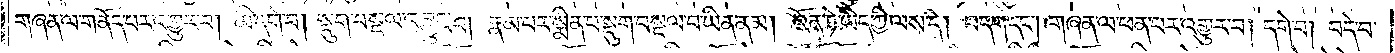གཞན་ལ་གནོད་པར་འགྱུར་བ། མི་དགེ་བ། སྡུག་བསྔལ་འབྱུང་བ། རྣམ་པར་སྨིན་པ་སྡུག་བསྔལ་བ་ཡིན་ནམ། འོན་ཏེ་ཡིད་ཀྱི་ལས་དེ། བདག་དང༌། གཞན་ལ་ཕན་པར་འགྱུར་བ། དགེ་བ། བདེ་བ་
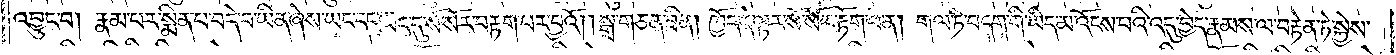འབྱུང་བ། རྣམ་པར་སྨིན་པ་བདེ་བ་ཡིན་ཞེས་ཡང་དང་ཡང་དུ་སོ་སོར་བརྟག་པར་བྱའོ། །སྒྲ་གཅན་ཟིན། ཁྱོད་དེ་ལྟར་སོ་སོར་རྟོག་པ་ན། གལ་ཏེ་བདག་གི་ཡིད་མ་འོངས་པའི་འདུ་བྱེད་རྣམས་ལ་བརྟེན་ཏེ་སྐྱེས་
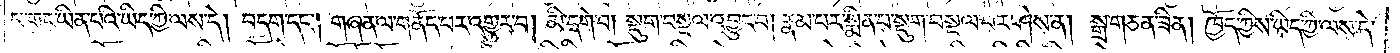པ་གང་ཡིན་པའི་ཡིད་ཀྱི་ལས་དེ། བདག་དང༌། གཞན་ལ་གནོད་པར་འགྱུར་བ། མི་དགེ་བ། སྡུག་བསྔལ་འབྱུང་བ། རྣམ་པར་སྨིན་པ་སྡུག་བསྔལ་བར་ཤེས་ན། སྒྲ་གཅན་ཟིན། ཁྱོད་ཀྱིས་ཡིད་ཀྱི་ལས་དེ་
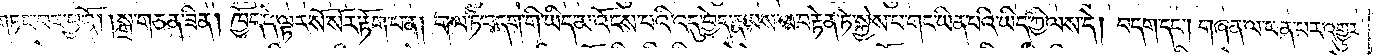གཏང་བར་བྱའོ། །སྒྲ་གཅན་ཟིན། ཁྱོད་དེ་ལྟར་སོ་སོར་རྟོག་པ་ན། གལ་ཏེ་བདག་གི་ཡིད་མ་འོངས་པའི་འདུ་བྱེད་རྣམས་ལ་བརྟེན་ཏེ་སྐྱེས་པ་གང་ཡིན་པའི་ཡིད་ཀྱི་ལས་དེ། བདག་དང༌། གཞན་ལ་ཕན་པར་འགྱུར་
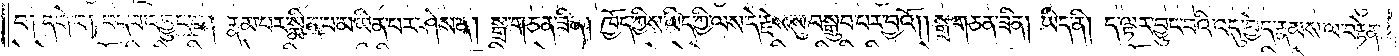བ༑ དགེ་བ། བདེ་བ་འབྱུང་བ། རྣམ་པར་སྨིན་པ་མ་ཡིན་པར་ཤེས་ན། སྒྲ་གཅན་ཟིན། ཁྱོད་ཀྱིས་ཡིད་ཀྱི་ལས་དེ་རྗེས་སུ་བསྒྲུབ་པར་བྱའོ། །སྒྲ་གཅན་ཟིན། ཡིད་ནི། ད་ལྟར་བྱུང་བའི་འདུ་བྱེད་རྣམས་ལ་བརྟེན་
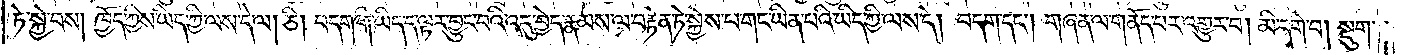ཏེ་སྐྱེ་བས། ཁྱོད་ཀྱིས་ཡིད་ཀྱི་ལས་དེ་ལ། ཅི། བདག་གི་ཡིད་ད་ལྟར་བྱུང་བའི་འདུ་བྱེད་རྣམས་ལ་བརྟེན་ཏེ་སྐྱེས་པ་གང་ཡིན་པའི་ཡིད་ཀྱི་ལས་དེ། བདག་དང༌། གཞན་ལ་གནོད་པར་འགྱུར་བ། མི་དགེ་བ། སྡུག་
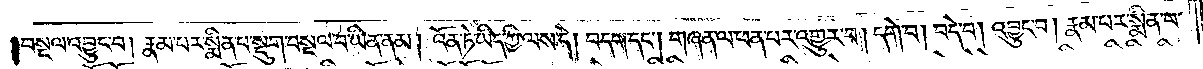བསྔལ་འབྱུང་བ། རྣམ་པར་སྨིན་པ་སྡུག་བསྔལ་བ་ཡིན་ནམ། འོན་ཏེ་ཡིད་ཀྱི་ལས་དེ། བདག་དང༌། གཞན་ལ་ཕན་པར་འགྱུར་བ། དགེ་བ། བདེ་བ། འབྱུང་བ། རྣམ་པར་སྨིན་པ་
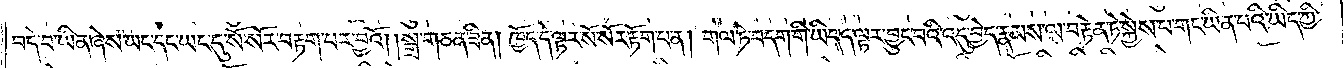བདེ་བ་ཡིན་ཞེས་ཡང་དང་ཡང་དུ་སོ་སོར་བརྟག་པར་བྱའོ། །སྒྲ་གཅན་ཟིན། ཁྱོད་དེ་ལྟར་སོ་སོར་རྟོག་པ་ན། གལ་ཏེ་བདག་གི་ཡིད་ད་ལྟར་བྱུང་བའི་འདུ་བྱེད་རྣམས་ལ་བརྟེན་ཏེ་སྐྱེས་པ་གང་ཡིན་པའི་ཡིད་ཀྱི་
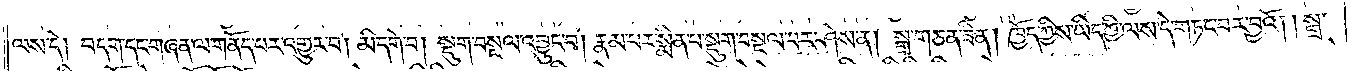ལས་དེ། བདག་དང་གཞན་ལ་གནོད་པར་འགྱུར་བ། མི་དགེ་བ། སྡུག་བསྔལ་འབྱུང་བ། རྣམ་པར་སྨིན་པ་སྡུག་བསྔལ་པར་ཤེས་ན། སྒྲ་གཅན་ཟིན། ཁྱོད་ཀྱིས་ཡིད་ཀྱི་ལས་དེ་གཏང་བར་བྱའོ། །སྒྲ་
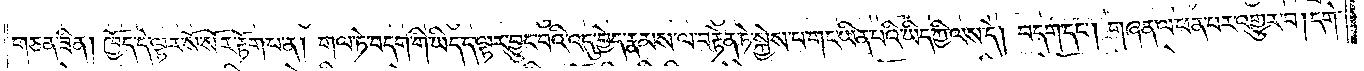གཅན་ཟིན། ཁྱོད་དེ་ལྟར་སོ་སོར་རྟོག་པ་ན། གལ་ཏེ་བདག་གི་ཡིད་ད་ལྟར་བྱུང་བའི་འདུ་བྱེད་རྣམས་ལ་བརྟེན་ཏེ་སྐྱེས་པ་གང་ཡིན་པའི་ཡིད་ཀྱི་ལས་དེ། བདག་དང༌། གཞན་ལ་ཕན་པར་འགྱུར་བ། དགེ་
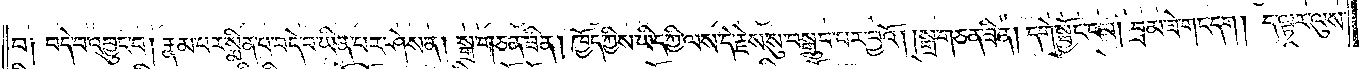བ། བདེ་བ་འབྱུང་བ། རྣམ་པར་སྨིན་པ་བདེ་བ་ཡིན་པར་ཤེས་ན། སྒྲ་གཅན་ཟིན། ཁྱོད་ཀྱིས་ཡིད་ཀྱི་ལས་དེ་རྗེས་སུ་བསྒྲུབ་པར་བྱའོ། །སྒྲ་གཅན་ཟིན། དགེ་སྦྱོང་ངམ། བྲམ་ཟེ་གང་དག། ད་ལྟར་ལུས་
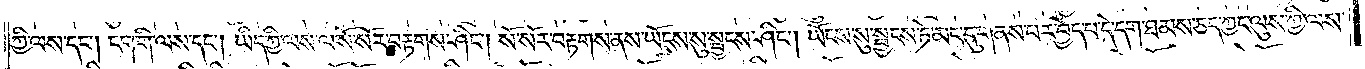ཀྱི་ལས་དང༌། ངག་གི་ལས་དང༌། ཡིད་ཀྱི་ལས་ལ་སོ་སོར་བརྟགས་ཤིང༌། སོ་སོར་བརྟགས་ནས་ཡོངས་སུ་སྦྱངས་ཤིང༌། ཡོངས་སུ་སྦྱངས་ཏེ་མང་དུ་གནས་པར་བྱེད་པ་དེ་དག་ཐམས་ཅད་ཀྱང་ལུས་ཀྱི་ལས་
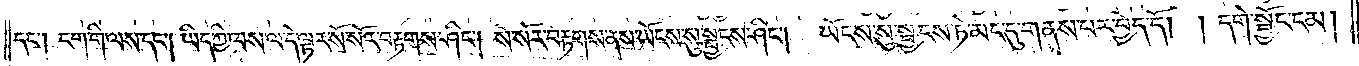དང༌། ངག་གི་ལས་དང༌། ཡིད་ཀྱི་ལས་ལ་དེ་ལྟར་སོ་སོར་བརྟགས་ཤིང༌། སོ་སོར་བརྟགས་ནས་ཡོངས་སུ་སྦྱངས་ཤིང༌། ཡོངས་སུ་སྦྱངས་ཏེ་མང་དུ་གནས་པར་བྱེད་དོ། །དགེ་སྦྱོང་ངམ།
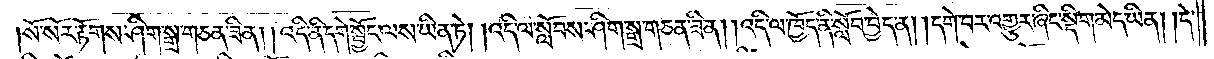སོ་སོར་རྟོགས་ཤིག་སྒྲ་གཅན་ཟིན། །འདི་ནི་དགེ་སྦྱོང་ལས་ཡིན་ཏེ། །འདི་ལ་སློབས་ཤིག་སྒྲ་གཅན་ཟིན། །འདི་ལ་ཁྱོད་ནི་སློབ་བྱེད་ན། །དགེ་བར་འགྱུར་ཞིང་སྡིག་མེད་ཡིན། །དེ་
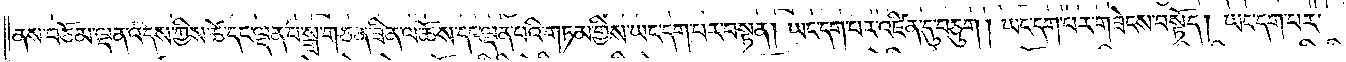ནས་བཅོམ་ལྡན་འདས་ཀྱིས་ཚེ་དང་ལྡན་པ་སྒྲ་གཅན་ཟིན་ལ་ཆོས་དང་ལྡན་པའི་གཏམ་གྱིས་ཡང་དག་པར་བསྟན། ཡང་དག་པར་འཛིན་དུ་བཅུག། ཡང་དག་པར་གཟེངས་བསྟོད། ཡང་དག་པར་
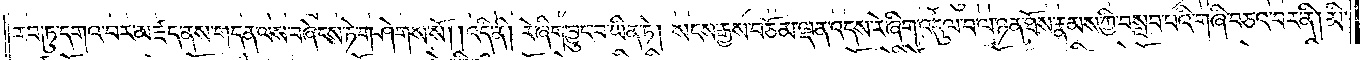རབ་ཏུ་དགའ་བར་མཛད་ནས་གདན་ལས་བཞེངས་ཏེ་གཤེགས་སོ། །འདི་ནི། རེ་ཞིག་བྱུང་བ་ཡིན་ཏེ། སངས་རྒྱས་བཅོམ་ལྡན་འདས་རེ་ཞིག་འདུལ་བ་ལ་ཉན་ཐོས་རྣམས་ཀྱི་བསླབ་པའི་གཞི་བཅའ་བར་ནི། མི་
